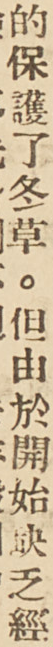的保護了冬草。但由於開始缺乏經
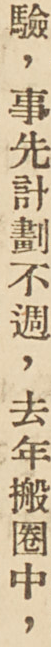驗，實現計劃不週，去年搬圈中，
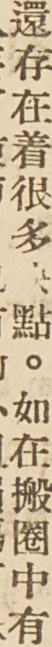還存在着很多缺點。如在搬圈中有
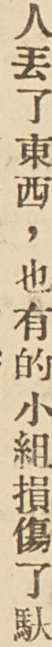人丟了東西，也有的小組損傷了䭾
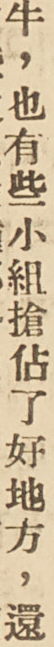牛，也有些小組搶佔了好地方，還
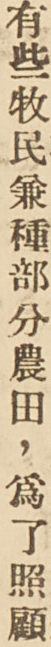有些牧民兼種部分農田，爲了照顧
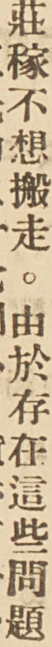莊稼不想搬走。由於存在這些問題
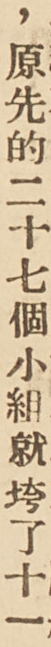，原先的二十七個小組就垮了十一
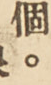個。
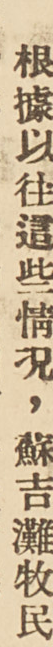根據以往這些情况，蘇吉灘牧民
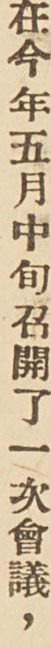在今年五月中旬召開了一次會議，
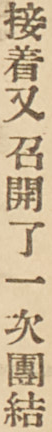接着又召開了一次團結
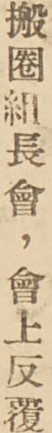搬圈組長會，會上反覆
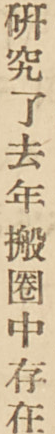研究了去年搬圈中存在
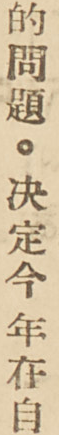的問題。決定今年在自
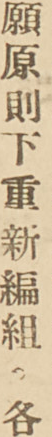願原則下重新編組。各
